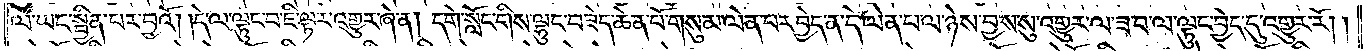ལ་ཡང་སྦྱིན་པར་བྱའོ། །དེ་ལ་ལྟུང་བ་ཇི་ལྟར་འགྱུར་ཞེ་ན། དགེ་སློང་གིས་ལྷུང་བཟེད་ཆེན་པོ་གསུམ་ལེན་པར་བྱེད་ན་དེ་ལེན་པ་ལ་ཉེས་བྱས་སུ་འགྱུར་ལ་ཟ་བ་ལ་ལྟུང་བྱེད་དུ་འགྱུར་རོ། །
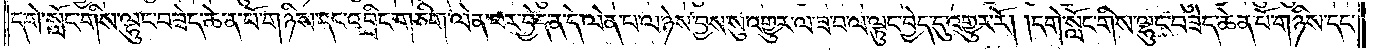དགེ་སློང་གིས་ལྷུང་བཟེད་ཆེན་པོ་གཉིས་དང་འབྲིང་གཅིག་ལེན་པར་བྱེད་ན་དེ་ལེན་པ་ལ་ཉེས་བྱས་སུ་འགྱུར་ལ་ཟ་བ་ལ་ལྟུང་བྱེད་དུ་འགྱུར་རོ། །དགེ་སློང་གིས་ལྷུང་བཟེད་ཆེན་པོ་གཉིས་དང་
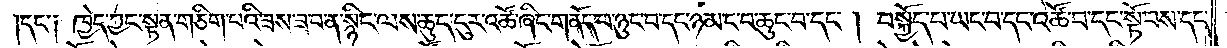དང་༑ ཁྱེད་ཀྱང་སྟན་གཅིག་པའི་ཟས་ཟ་བ་ན་སྙིང་ལས་ཆུང་ངུར་འཚོ་ཞིང་གནོད་པ་ཉུང་བ་དང་ཉམ་ང་བ་ཆུང་བ་དང༌། བསྐྱོད་པ་ཡང་བ་དང་འཚོ་བ་དང་སྟོབས་དང་
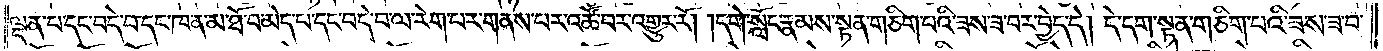ལྡན་པ་དང་བདེ་བ་དང་ཁ་ན་མ་ཐོ་བ་མེད་པ་དང་བདེ་བ་ལ་རེག་པར་གནས་པར་འཚོ་བར་འགྱུར་རོ། །དགེ་སློང་རྣམས་སྟན་གཅིག་པའི་ཟས་ཟ་བར་བྱེད་དེ། དེ་དག་སྟན་གཅིག་པའི་ཟས་ཟ་བ་
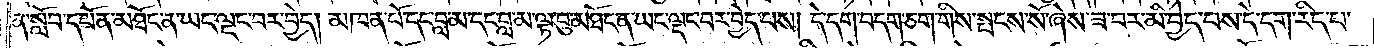ན་སློབ་དཔོན་མཐོང་ན་ཡང་ལྡང་བར་བྱེད། མཁན་པོ་དང་བླ་མ་དང་བླ་མ་ལྟ་བུ་མཐོང་ན་ཡང་ལྡང་བར་བྱེད་པས། དེ་དག་བདག་ཅག་གིས་སྤངས་སོ་ཞེས་ཟ་བར་མི་བྱེད་པས་དེ་དག་རིད་པ་
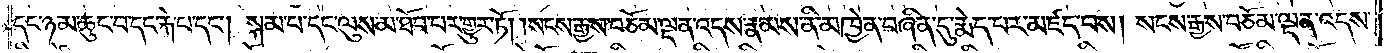དང་ཉམ་ཆུང་བ་དང་རྐེ་པ་དང༌། སྐམ་པ་དང་ལུས་མ་ཐོབ་པར་གྱུར་ཏོ། །སངས་རྒྱས་བཅོམ་ལྡན་འདས་རྣམས་ནི་མཁྱེན་བཞིན་དུ་རྨེད་པར་མཛད་པས། སངས་རྒྱས་བཅོམ་ལྡན་འདས་
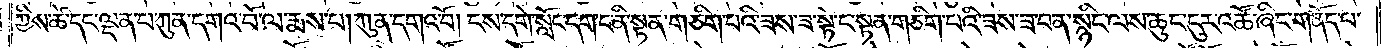ཀྱིས་ཚེ་དང་ལྡན་པ་ཀུན་དགའ་བོ་ལ་རྨས་པ། ཀུན་དགའ་བོ། ངས་དགེ་སློང་དག་ང་ནི་སྟན་གཅིག་པའི་ཟས་ཟ་སྟེ་ང་སྟན་གཅིག་པའི་ཟས་ཟ་བ་ན་སྙིང་ལས་ཆུང་ངུར་འཚོ་ཞིང་གནོད་པ་
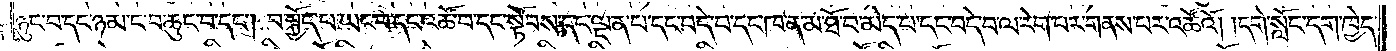ཉུང་བ་དང་ཉམ་ང་བ་ཆུང་བ་དང༌། བསྐྱོད་པ་ཡང་བ་དང་འཚོ་བ་དང་སྟོབས་དང་ལྡན་པ་དང་བདེ་བ་དང་ཁ་ན་མ་ཐོ་བ་མེད་པ་དང་བདེ་བ་ལ་རེག་པར་གནས་པར་འཚོའོ། །དགེ་སློང་དག་ཁྱེད་
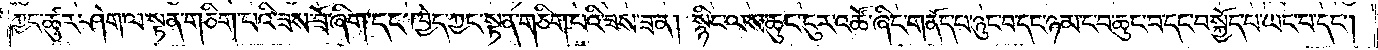ཀྱང་ཚུར་ཤེག་ལ་སྟན་གཅིག་པའི་ཟས་ཟོ་ཞིག་དང་ཁྱེད་ཀྱང་སྟན་གཅིག་པའི་ཟས་ཟ་ན། སྙིང་ལས་ཆུང་ངུར་འཚོ་ཞིང་གནོད་པ་ཉུང་བ་དང་ཉམ་ང་བ་ཆུང་བ་དང་བསྐྱོད་པ་ཡང་པ་དང༌།
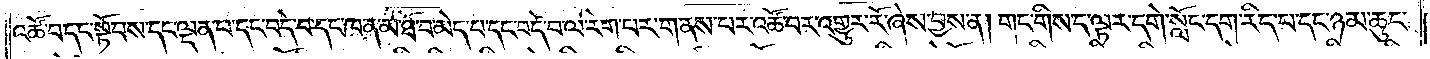འཚོ་བ་དང་སྟོབས་དང་ལྡན་པ་དང་བདེ་བ་དང་ཁ་ན་མ་ཐོ་བ་མེད་པ་དང་བདེ་བ་ལ་རེག་པར་གནས་པར་འཚོ་བར་འགྱུར་རོ་ཞེས་བྱས་ན། གང་གིས་ད་ལྟར་དགེ་སློང་དག་རིད་པ་དང་ཉམ་ཆུང་
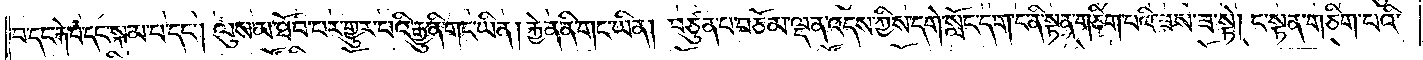བ་དང་རྐེ་བ་དང་སྐམ་པ་དང༌། ལུས་མ་ཐོབ་པར་གྱུར་པའི་རྒྱུ་ནི་གང་ཡིན། རྐྱེན་ནི་གང་ཡིན། བཙུན་པ་བཅོམ་ལྡན་འདས་ཀྱིས་དགེ་སློང་དག་ང་ནི་སྟན་གཅིག་པའི་ཟས་ཟ་སྟེ། ང་སྟན་གཅིག་པའི་
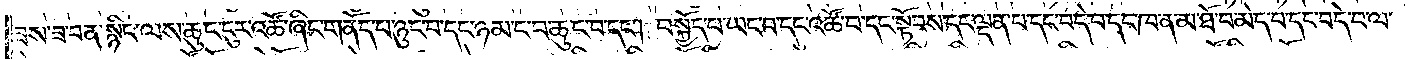ཟས་ཟ་བ་ན་སྙིང་ལས་ཆུང་ངུར་འཚོ་ཞིང་གནོད་པ་ཉུང་བ་དང་ཉམ་ང་བ་ཆུང་བ་དང༌། བསྐྱོད་པ་ཡང་བ་དང་འཚོ་བ་དང་སྟོབས་དང་ལྡན་པ་དང་བདེ་བ་དང་ཁ་ན་མ་ཐོ་བ་མེད་པ་དང་བདེ་བ་ལ་
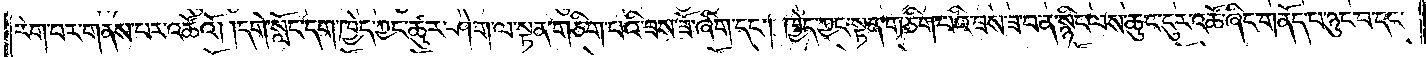རེག་པར་གནས་པར་འཚོའོ། །དགེ་སློང་དག་ཁྱེད་ཀྱང་ཆུར་ཤེག་ལ་སྟན་གཅིག་པའི་ཟས་ཟོ་ཞིག་དང༌། ཁྱེད་ཀྱང་སྟན་གཅིག་པའི་ཟས་ཟ་བ་ན་སྙིང་ལས་ཆུང་ངུར་འཚོ་ཞིང་གནོད་པ་ཉུང་བ་དང་
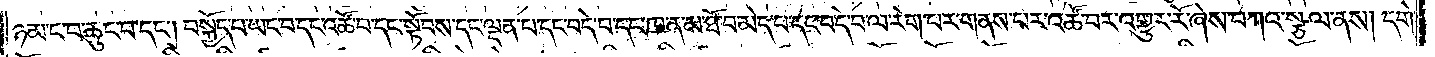ཉམ་ང་བ་ཆུང་བ་དང༌། བསྐྱོད་པ་ཡང་བ་དང་འཚོ་བ་དང་སྟོབས་དང་ལྡན་པ་དང་བདེ་བ་དང་ཁ་ན་མ་ཐོ་བ་མེད་པ་དང་བདེ་བ་ལ་རེག་པར་གནས་པར་འཚོ་བར་འགྱུར་རོ་ཞེས་བཀའ་སྩལ་ནས། དགེ་
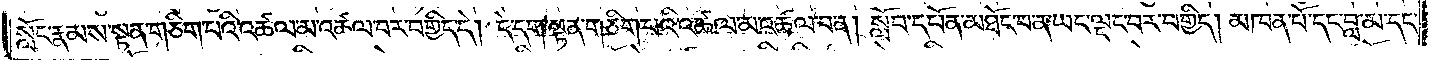སློང་རྣམས་སྟན་གཅིག་པའི་འཚལ་མ་འཚལ་བར་བགྱིད་དེ། དེ་དག་སྟན་གཅིག་པའི་འཚལ་མ་འཚལ་བ་ན། སློབ་དཔོན་མཐོང་བ་ན་ཡང་ལྡང་བར་བགྱིད། མཁན་པོ་དང་བླ་མ་དང་
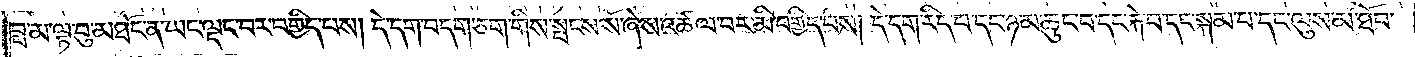བླ་མ་ལྟ་བུ་མཐོང་ན་ཡང་ལྡང་བར་བགྱིད་པས། དེ་དག་བདག་ཅག་གིས་སྤངས་སོ་ཞེས་འཚལ་བར་མི་བགྱིད་པས། དེ་དག་རིད་པ་དང་ཉམ་ཆུང་བ་དང་རྐེ་བ་དང་སྐམ་པ་དང་ལུས་མ་ཐོབ་
